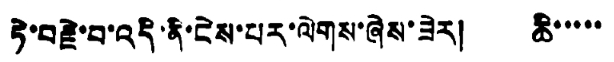ཏེ་བརྗེ་བ་འདི་ནི་ངེས་པར་ལེགས་ཞེས་ཟེར། ཆི་་་་་
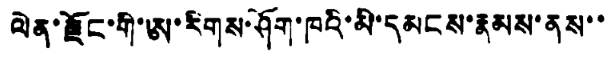ལེན་རྫོང་གི་ཨ་རིགས་ཤོག་ཁའི་མི་དམངས་རྣམས་ནས་་
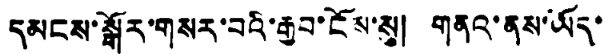དམངས་སྒོར་གསར་བའི་རྒྱབ་ངོས་སུ། གནའ་ནས་ཡོད་
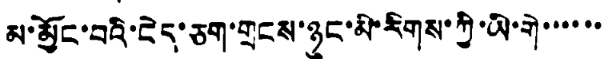མ་མྱོང་བའི་ངེད་ཅག་གྲངས་ཉུང་མི་རིགས་ཀྱི་ཡི་གེ་་་་་་
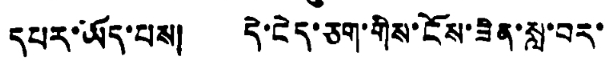དཔར་ཡོད་པས། དེ་ངེད་ཅག་གིས་ངོས་ཟིན་སླ་བར་
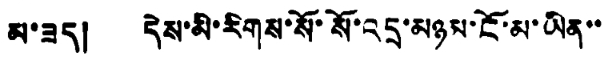མ་ཟད། དེས་མི་རིགས་སོ་སོ་འདྲ་མཉམ་ངོ་མ་ཡིན་་
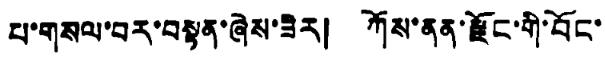པ་གསལ་བར་བསྟན་ཞེས་ཟེར། ཀོས་ནན་རྫོང་གི་བོང་
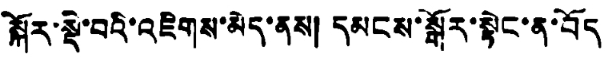སྐོར་སྡེ་བའི་འཇིགས་མེད་ནས། དམངས་སྒོར་སྟེང་ན་བོད
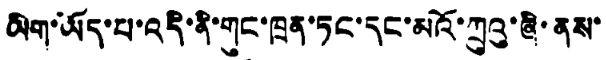ཡིག་ཡོད་པ་འདི་ནི་གུང་ཁྲན་ཏང་དང་མའོ་ཀྲུའུ་ཞི་ནས་
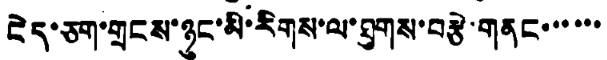ངེད་ཅག་གྲངས་ཉུང་མི་རིགས་ལ་ཐུགས་བརྩེ་གནང་་་་་་
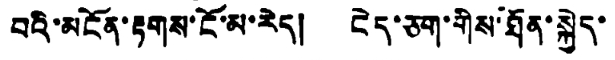བའི་མངོན་རྟགས་ངོ་མ་རེད། ངེད་ཅག་གིས་ཐོན་སྐྱེད་
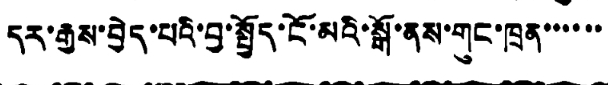དར་རྒྱས་བྱེད་པའི་བྱ་སྤྱོད་ངོ་མའི་སྒོ་ནས་གུང་ཁྲན་་་་་་
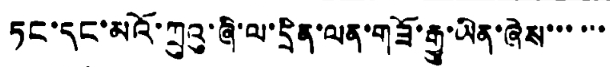ཏང་དང་མའོ་ཀྲུའུ་ཞི་ལ་དྲིན་ལན་གཟོ་རྒྱུ་ཡིན་ཞེས་་་་་་
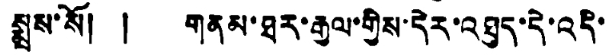སྨྲས་སོ། ། གནམ་ཐར་རྒྱལ་གྱིས་དེར་འཐུད་དེ་འདི་
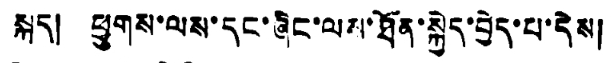སྐད། ཕྱུགས་ལས་དང་ཞིང་ལས་ཐོན་སྐྱེད་བྱེད་པ་དེས།
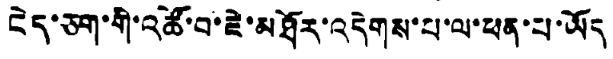ངེད་ཅག་གི་འཚོ་བ་ཇེ་མཐོར་འདེགས་པ་ལ་ཕན་པ་ཡོད
